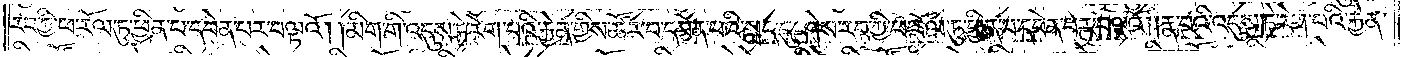རབ་ཀྱི་ཕ་རོལ་ཏུ་ཕྱིན་པ་དབེན་པར་བལྟའོ། །མིག་གི་འདུས་ཏེ་རེག་པའི་རྐྱེན་གྱིས་ཚོར་བ་དབེན་པའི་སླད་དུ་ཤེས་རབ་ཀྱི་ཕ་རོལ་ཏུ་ཕྱིན་པ་དབེན་པར་བལྟའོ། །རྣ་བའི་འདུས་ཏེ་རེག་པའི་རྐྱེན་
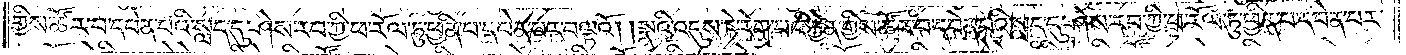གྱིས་ཚོར་བ་དབེན་པའི་སླད་དུ་ཤེས་རབ་ཀྱི་ཕ་རོལ་ཏུ་ཕྱིན་པ་དབེན་པར་བལྟའོ། །སྣའི་འདུས་ཏེ་རེག་པའི་རྐྱེན་གྱིས་ཚོར་བ་དབེན་པའི་སླད་དུ་ཤེས་རབ་ཀྱི་ཕ་རོལ་ཏུ་ཕྱིན་པ་དབེན་པར་
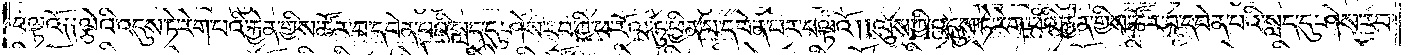བལྟའོ༑ ༑ལྕེའི་འདུས་ཏེ་རེག་པའི་རྐྱེན་གྱིས་ཚོར་བ་དབེན་པའི་སླད་དུ་ཤེས་རབ་ཀྱི་ཕ་རོལ་ཏུ་ཕྱིན་པ་དབེན་པར་བལྟའོ། །ལུས་ཀྱི་འདུས་ཏེ་རེག་པའི་རྐྱེན་གྱིས་ཚོར་བ་དབེན་པའི་སླད་དུ་ཤེས་རབ་
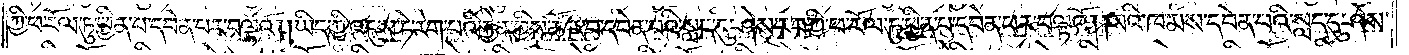ཀྱི་ཕ་རོལ་ཏུ་ཕྱིན་པ་དབེན་པར་བལྟའོ། །ཡིད་ཀྱི་འདུས་ཏེ་རེག་པའི་རྐྱེན་གྱིས་ཚོར་བ་དབེན་པའི་སླད་དུ་ཤེས་རབ་ཀྱི་ཕ་རོལ་ཏུ་ཕྱིན་པ་དབེན་པར་བལྟའོ། །སའི་ཁམས་དབེན་པའི་སླད་དུ་ཤེས་
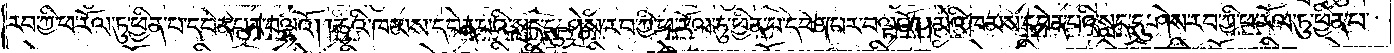རབ་ཀྱི་ཕ་རོལ་ཏུ་ཕྱིན་པ་དབེན་པར་བལྟའོ། །ཆུའི་ཁམས་དབེན་པའི་སླད་དུ་ཤེས་རབ་ཀྱི་ཕ་རོལ་ཏུ་ཕྱིན་པ་དབེན་པར་བལྟའོ། །མེའི་ཁམས་དབེན་པའི་སླད་དུ་ཤེས་རབ་ཀྱི་ཕ་རོལ་ཏུ་ཕྱིན་པ་
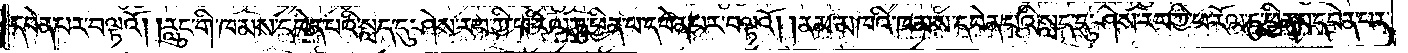དབེན་པར་བལྟའོ། །རླུང་གི་ཁམས་དབེན་པའི་སླད་དུ་ཤེས་རབ་ཀྱི་ཕ་རོལ་ཏུ་ཕྱིན་པ་དབེན་པར་བལྟའོ། །ནམ་མཁའི་ཁམས་དབེན་པའི་སླད་དུ་ཤེས་རབ་ཀྱི་ཕ་རོལ་ཏུ་ཕྱིན་པ་དབེན་པར་
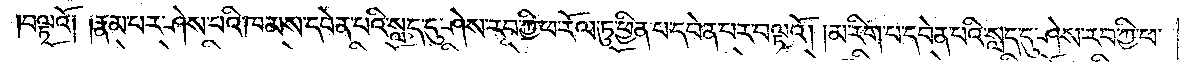བལྟའོ༑ ༑རྣམ་པར་ཤེས་པའི་ཁམས་དབེན་པའི་སླད་དུ་ཤེས་རབ་ཀྱི་ཕ་རོལ་ཏུ་ཕྱིན་པ་དབེན་པར་བལྟའོ། །མ་རིག་པ་དབེན་པའི་སླད་དུ་ཤེས་རབ་ཀྱི་ཕ་
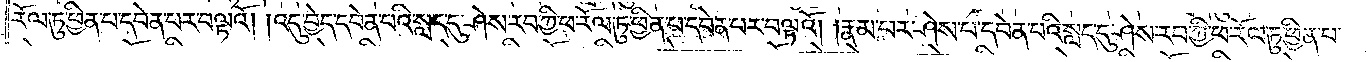རོལ་ཏུ་ཕྱིན་པ་དབེན་པར་བལྟའོ། །འདུ་བྱེད་དབེན་པའི་སླད་དུ་ཤེས་རབ་ཀྱི་ཕ་རོལ་ཏུ་ཕྱིན་པ་དབེན་པར་བལྟའོ། །རྣམ་པར་ཤེས་པ་དབེན་པའི་སླད་དུ་ཤེས་རབ་ཀྱི་ཕ་རོལ་ཏུ་ཕྱིན་པ་
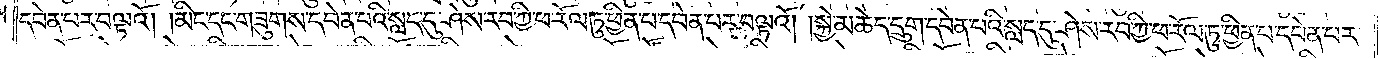དབེན་པར་བལྟའོ། །མིང་དང་གཟུགས་དབེན་པའི་སླད་དུ་ཤེས་རབ་ཀྱི་ཕ་རོལ་ཏུ་ཕྱིན་པ་དབེན་པར་བལྟའོ། །སྐྱེ་མཆེད་དྲུག་དབེན་པའི་སླད་དུ་ཤེས་རབ་ཀྱི་ཕ་རོལ་ཏུ་ཕྱིན་པ་དབེན་པར་
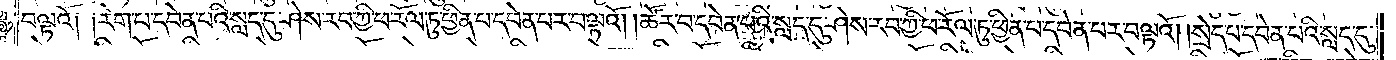བལྟའོ༑ ༑རེག་པ་དབེན་པའི་སླད་དུ་ཤེས་རབ་ཀྱི་ཕ་རོལ་ཏུ་ཕྱིན་པ་དབེན་པར་བལྟའོ། །ཚོར་བ་དབེན་པའི་སླད་དུ་ཤེས་རབ་ཀྱི་ཕ་རོལ་ཏུ་ཕྱིན་པ་དབེན་པར་བལྟའོ། །སྲེད་པ་དབེན་པའི་སླད་དུ་
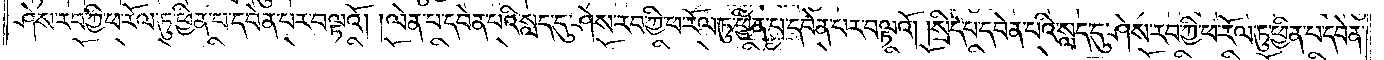ཤེས་རབ་ཀྱི་ཕ་རོལ་ཏུ་ཕྱིན་པ་དབེན་པར་བལྟའོ། །ལེན་པ་དབེན་པའི་སླད་དུ་ཤེས་རབ་ཀྱི་ཕ་རོལ་ཏུ་ཕྱིན་པ་དབེན་པར་བལྟའོ། །སྲིད་པ་དབེན་པའི་སླད་དུ་ཤེས་རབ་ཀྱི་ཕ་རོལ་ཏུ་ཕྱིན་པ་དབེན་
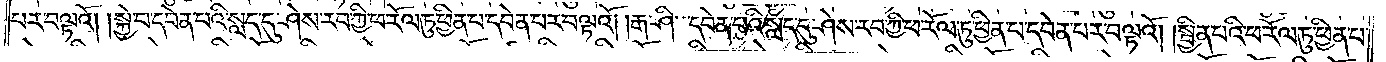པར་བལྟའོ། །སྐྱེ་བ་དབེན་པའི་སླད་དུ་ཤེས་རབ་ཀྱི་ཕ་རོལ་ཏུ་ཕྱིན་པ་དབེན་པར་བལྟའོ། །རྒ་ཤི་དབེན་པའི་སླད་དུ་ཤེས་རབ་ཀྱི་ཕ་རོལ་ཏུ་ཕྱིན་པ་དབེན་པར་བལྟའོ། །སྦྱིན་པའི་ཕ་རོལ་ཏུ་ཕྱིན་པ་
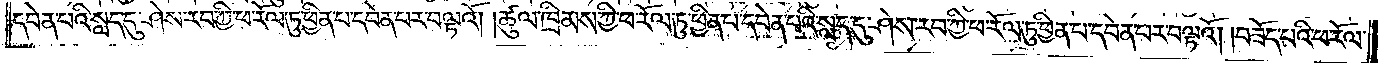དབེན་པའི་སླད་དུ་ཤེས་རབ་ཀྱི་ཕ་རོལ་ཏུ་ཕྱིན་པ་དབེན་པར་བལྟའོ། །ཚུལ་ཁྲིམས་ཀྱི་ཕ་རོལ་ཏུ་ཕྱིན་པ་དབེན་པའི་སླད་དུ་ཤེས་རབ་ཀྱི་ཕ་རོལ་ཏུ་ཕྱིན་པ་དབེན་པར་བལྟའོ། །བཟོད་པའི་ཕ་རོལ་
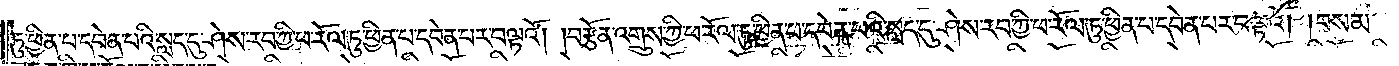ཏུ་ཕྱིན་པ་དབེན་པའི་སླད་དུ་ཤེས་རབ་ཀྱི་ཕ་རོལ་ཏུ་ཕྱིན་པ་དབེན་པར་བལྟའོ། །བརྩོན་འགྲུས་ཀྱི་ཕ་རོལ་ཏུ་ཕྱིན་པ་དབེན་པའི་སླད་དུ་ཤེས་རབ་ཀྱི་ཕ་རོལ་ཏུ་ཕྱིན་པ་དབེན་པར་བལྟའོ། །བསམ་
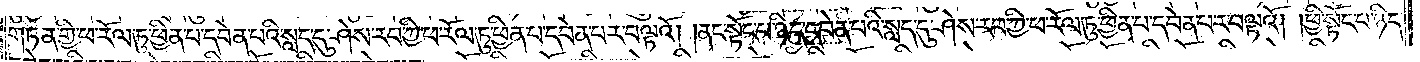གཏན་གྱི་ཕ་རོལ་ཏུ་ཕྱིན་པ་དབེན་པའི་སླད་དུ་ཤེས་རབ་ཀྱི་ཕ་རོལ་ཏུ་ཕྱིན་པ་དབེན་པར་བལྟའོ། །ནང་སྟོང་པ་ཉིད་དབེན་པའི་སླད་དུ་ཤེས་རབ་ཀྱི་ཕ་རོལ་ཏུ་ཕྱིན་པ་དབེན་པར་བལྟའོ། །ཕྱི་སྟོང་པ་ཉིད་
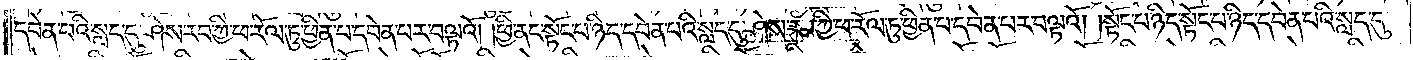དབེན་པའི་སླད་དུ་ཤེས་རབ་ཀྱི་ཕ་རོལ་ཏུ་ཕྱིན་པ་དབེན་པར་བལྟའོ། །ཕྱི་ནང་སྟོང་པ་ཉིད་དབེན་པའི་སླད་དུ་ཤེས་རབ་ཀྱི་ཕ་རོལ་ཏུ་ཕྱིན་པ་དབེན་པར་བལྟའོ། །སྟོང་པ་ཉིད་སྟོང་པ་ཉིད་དབེན་པའི་སླད་དུ་
